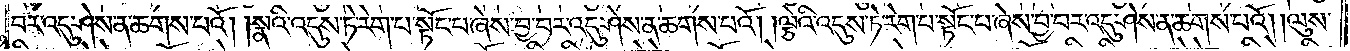བར་འདུ་ཤེས་ན་ཆགས་པའོ། །སྣའི་འདུས་ཏེ་རེག་པ་སྟོང་པ་ཞེས་བྱ་བར་འདུ་ཤེས་ན་ཆགས་པའོ། །ལྕེའི་འདུས་ཏེ་རེག་པ་སྟོང་པ་ཞེས་བྱ་བར་འདུ་ཤེས་ན་ཆགས་པའོ། །ལུས་
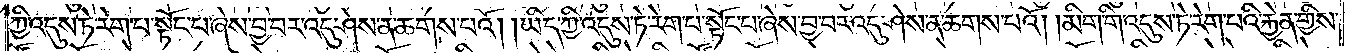ཀྱི་འདུས་ཏེ་རེག་པ་སྟོང་པ་ཞེས་བྱ་བར་འདུ་ཤེས་ན་ཆགས་པའོ། །ཡིད་ཀྱི་འདུས་ཏེ་རེག་པ་སྟོང་པ་ཞེས་བྱ་བར་འདུ་ཤེས་ན་ཆགས་པའོ། །མིག་གི་འདུས་ཏེ་རེག་པའི་རྐྱེན་གྱིས་
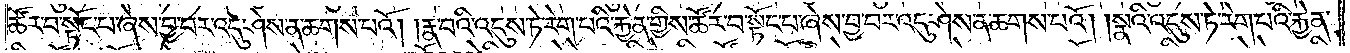ཚོར་བ་སྟོང་པ་ཞེས་བྱ་བར་འདུ་ཤེས་ན་ཆགས་པའོ། །རྣ་བའི་འདུས་ཏེ་རེག་པའི་རྐྱེན་གྱིས་ཚོར་བ་སྟོང་པ་ཞེས་བྱ་བར་འདུ་ཤེས་ན་ཆགས་པའོ། །སྣའི་འདུས་ཏེ་རེག་པའི་རྐྱེན་
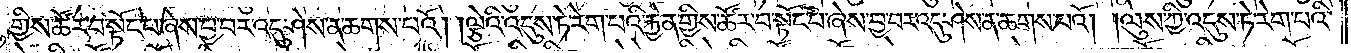གྱིས་ཚོར་བ་སྟོང་པ་ཞེས་བྱ་བར་འདུ་ཤེས་ན་ཆགས་པའོ། །ལྕེའི་འདུས་ཏེ་རེག་པའི་རྐྱེན་གྱིས་ཚོར་བ་སྟོང་པ་ཞེས་བྱ་བར་འདུ་ཤེས་ན་ཆགས་པའོ། །ལུས་ཀྱི་འདུས་ཏེ་རེག་པའི་
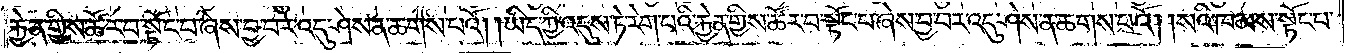རྐྱེན་གྱིས་ཚོར་བ་སྟོང་པ་ཞེས་བྱ་བར་འདུ་ཤེས་ན་ཆགས་པའོ། །ཡིད་ཀྱི་འདུས་ཏེ་རེག་པའི་རྐྱེན་གྱིས་ཚོར་བ་སྟོང་པ་ཞེས་བྱ་བར་འདུ་ཤེས་ན་ཆགས་པའོ། །སའི་ཁམས་སྟོང་པ་
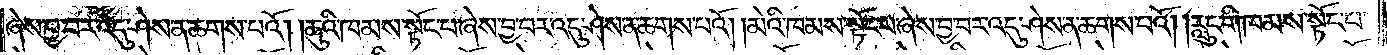ཞེས་བྱ་བར་འདུ་ཤེས་ན་ཆགས་པའོ། །ཆུའི་ཁམས་སྟོང་པ་ཞེས་བྱ་བར་འདུ་ཤེས་ན་ཆགས་པའོ། །མེའི་ཁམས་སྟོང་པ་ཞེས་བྱ་བར་འདུ་ཤེས་ན་ཆགས་པའོ། །རླུང་གི་ཁམས་སྟོང་པ་
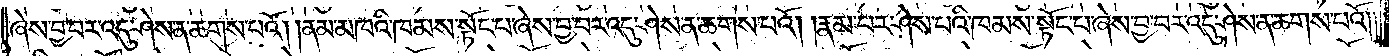ཞེས་བྱ་བར་འདུ་ཤེས་ན་ཆགས་པའོ། །ནམ་མཁའི་ཁམས་སྟོང་པ་ཞེས་བྱ་བར་འདུ་ཤེས་ན་ཆགས་པའོ། །རྣམ་པར་ཤེས་པའི་ཁམས་སྟོང་པ་ཞེས་བྱ་བར་འདུ་ཤེས་ན་ཆགས་པའོ། །
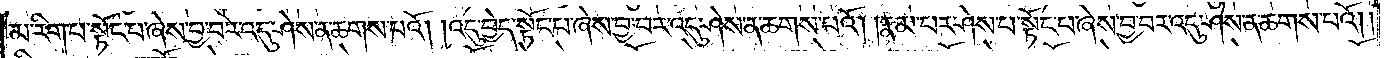མ་རིག་པ་སྟོང་པ་ཞེས་བྱ་བར་འདུ་ཤེས་ན་ཆགས་པའོ། །འདུ་བྱེད་སྟོང་པ་ཞེས་བྱ་བར་འདུ་ཤེས་ན་ཆགས་པའོ། །རྣམ་པར་ཤེས་པ་སྟོང་པ་ཞེས་བྱ་བར་འདུ་ཤེས་ན་ཆགས་པའོ། །
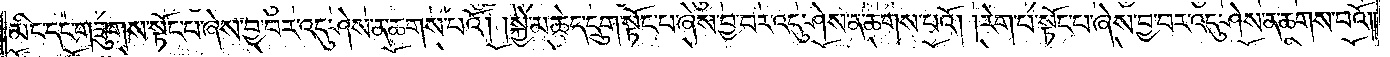མིང་དང་གཟུགས་སྟོང་པ་ཞེས་བྱ་བར་འདུ་ཤེས་ན་ཆགས་པའོ། །སྐྱེ་མཆེད་དུག་སྟོང་པ་ཞེས་བྱ་བར་འདུ་ཤེས་ན་ཆགས་པའོ། །རེག་པ་སྟོང་པ་ཞེས་བྱ་བར་འདུ་ཤེས་ན་ཆགས་པའོ། །
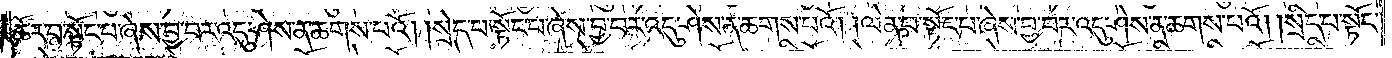ཚོར་བ་སྟོང་པ་ཞེས་བྱ་བར་འདུ་ཤེས་ན་ཆགས་པའོ། །སྲེད་པ་སྟོང་པ་ཞེས་བྱ་བར་འདུ་ཤེས་ན་ཆགས་པའོ། །ལེན་པ་སྟོང་པ་ཞེས་བྱ་བར་འདུ་ཤེས་ན་ཆགས་པའོ། །སྲིད་པ་སྟོང་
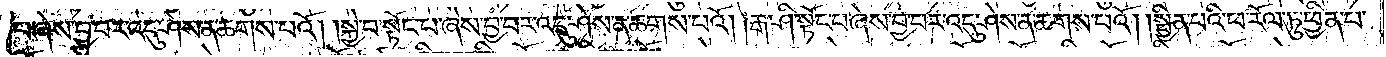པ་ཞེས་བྱ་བར་འདུ་ཤེས་ན་ཆགས་པའོ། །སྐྱེ་བ་སྟོང་པ་ཞེས་བྱ་བར་འདུ་ཤེས་ན་ཆགས་པའོ། །རྒ་ཤི་སྟོང་པ་ཞེས་བྱ་བར་འདུ་ཤེས་ན་ཆགས་པའོ། །སྦྱིན་པའི་ཕ་རོལ་ཏུ་ཕྱིན་པ་
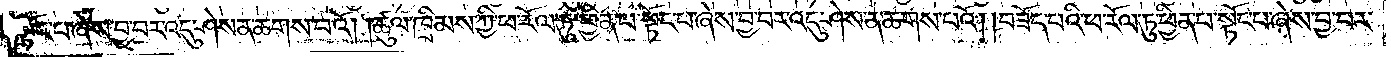སྟོང་པ་ཞེས་བྱ་བར་འདུ་ཤེས་ན་ཆགས་པའོ། །ཚུལ་ཁྲིམས་ཀྱི་ཕ་རོལ་ཏུ་ཕྱིན་པ་སྟོང་པ་ཞེས་བྱ་བར་འདུ་ཤེས་ན་ཆགས་པའོ། །བཟོད་པའི་ཕ་རོལ་ཏུ་ཕྱིན་པ་སྟོང་པ་ཞེས་བྱ་བར་
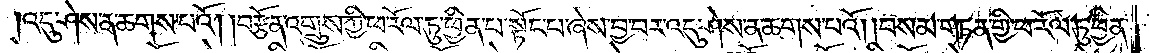འདུ་ཤེས་ན་ཆགས་པའོ། །བརྩོན་འགྲུས་ཀྱི་ཕ་རོལ་ཏུ་ཕྱིན་པ་སྟོང་པ་ཞེས་བྱ་བར་འདུ་ཤེས་ན་ཆགས་པའོ། །བསམ་གཏན་གྱི་ཕ་རོལ་ཏུ་ཕྱིན་
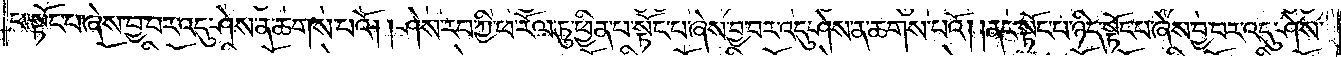པ་སྟོང་པ་ཞེས་བྱ་བར་འདུ་ཤེས་ན་ཆགས་པའོ། །ཤེས་རབ་ཀྱི་ཕ་རོལ་ཏུ་ཕྱིན་པ་སྟོང་པ་ཞེས་བྱ་བར་འདུ་ཤེས་ན་ཆགས་པའོ། །ནང་སྟོང་པ་ཉིད་སྟོང་པ་ཞེས་བྱ་བར་འདུ་ཤེས་
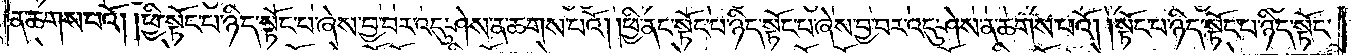ན་ཆགས་པའོ། །ཕྱི་སྟོང་པ་ཉིད་སྟོང་པ་ཞེས་བྱ་བར་འདུ་ཤེས་ན་ཆགས་པའོ། །ཕྱི་ནང་སྟོང་པ་ཉིད་སྟོང་པ་ཞེས་བྱ་བར་འདུ་ཤེས་པ་ན་ཆགས་པའོ། །སྟོང་པ་ཉིད་སྟོང་པ་ཉིད་སྟོང་
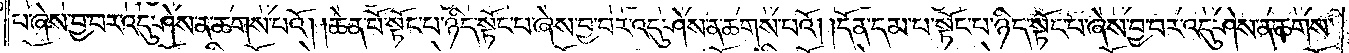པ་ཞེས་བྱ་བར་འདུ་ཤེས་ན་ཆགས་པའོ། །ཆེན་པོ་སྟོང་པ་ཉིད་སྟོང་པ་ཞེས་བྱ་བར་འདུ་ཤེས་ན་ཆགས་པའོ། །དོན་དམ་པ་སྟོང་པ་ཉིད་སྟོང་པ་ཞེས་བྱ་བར་འདུ་ཤེས་ན་ཆགས་
